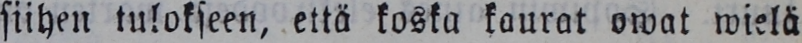siihen tulokseen, että koska kaurat owat wielä
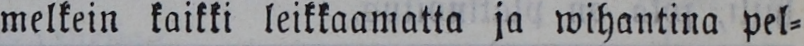melkein kaikki leikkaamatta ja wihantina pel-
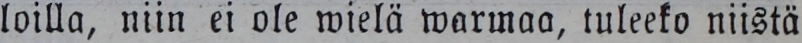loilla, niin ei ole wielä warmaa, tuleeko niistä
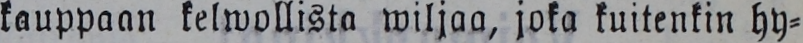kauppaan kelwollista wiljaa, joka kuitenkin hy-
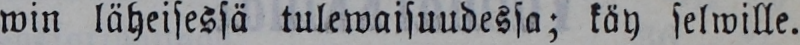win läheisessä tulewaisuudessa; käy selwille.
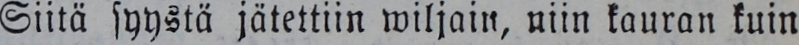Siitä syystä jätettiin wiljoin, niin kauran kuin
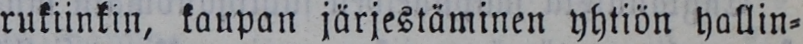rukiinkin, kaupan järjestäminen yhtiön hallin-
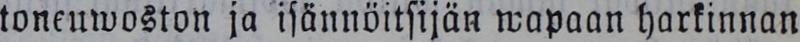toneuwoston ja isännöitsijän wapaan harkinnan
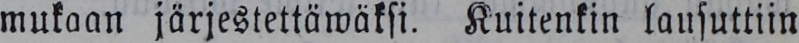mukaan järjestettäwäksi. Kuitenkin lausuttiin
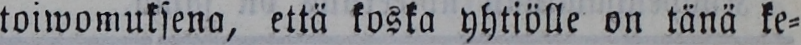toiwomuksena, että koska yhtiölle on tänä ke-
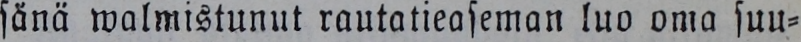sänä walmistunut rautatieaseman luo oma suu-
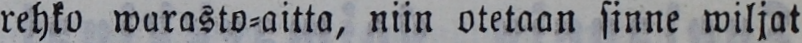rehko warasto-aitta, niin otetaan sinne wiljat
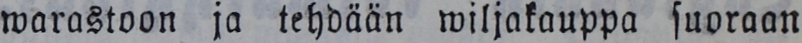warastoon ja tehdään wiljakauppa suoraan
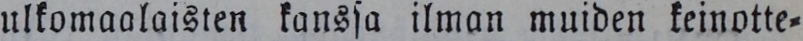ulkomaalaisten kanssa ilman muiden keinotte-
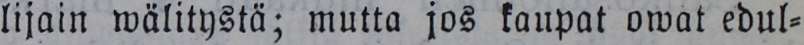lijain wälitystä; mutta jos kaupat owat edul-
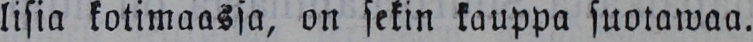lisia kotimaassa, on sekin kauppa suotawaa.
